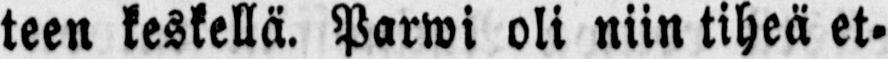teen keskellä. Parwi oli niin tiheä et-
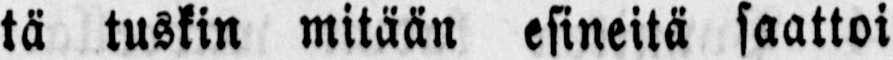tä tuskin mitään esineitä saattoi
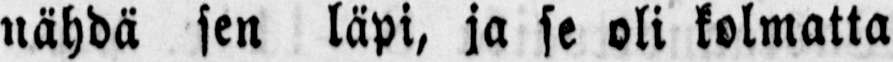nähdä sen läpi, ja se oli kolmatta
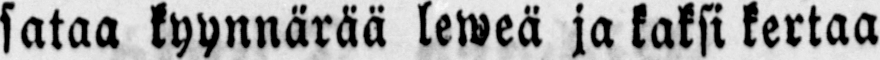sataa kyynnärää leweä ja kaksi kertaa
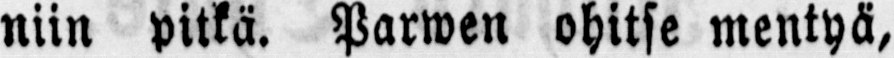niin pitkä. Parwen ohitse mentyä,
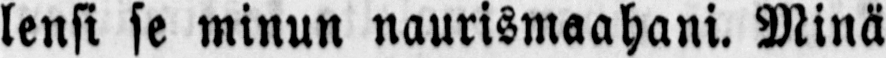lensi se minun naurismaahani. Minä
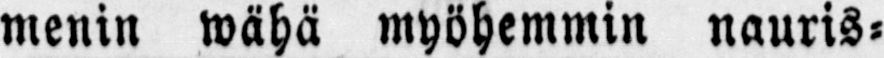menin wähä myöhemmin nauris-
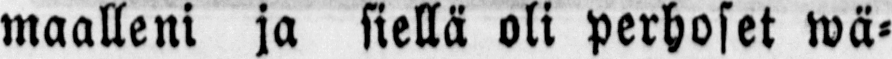maalleni ja siellä oli perhoset wä-
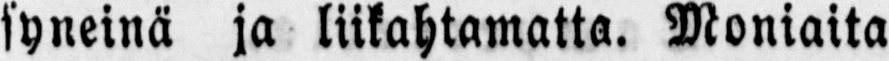syneinä ja liikahtamatta. Moniaita
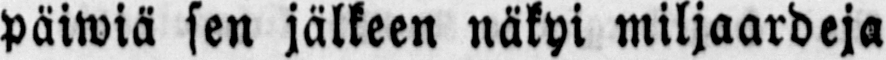päiwiä sen jälkeen näkyi miljaardeja
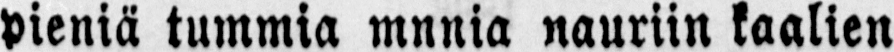pieniä tummia mnnia nauriin kaalien
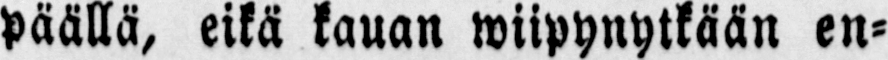päällä, eikä kauan wiipynytkään en-
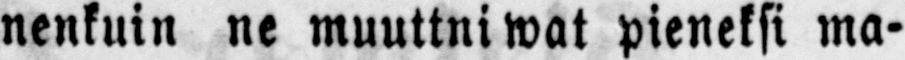nenkuin ne muuttniwat pieneksi ma-
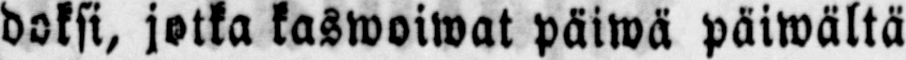doksi, jotka kaswoiwat päiwä päiwältä
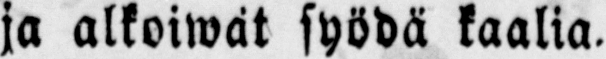ja alkoiwät syödä kaalia.
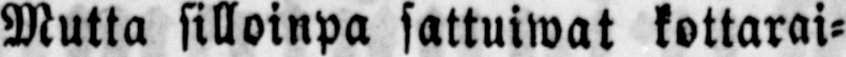Mutta silloinpa sattuiwat kottarai-
